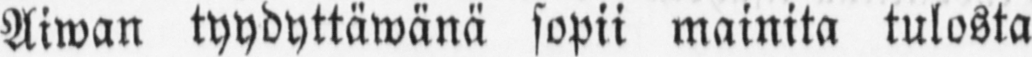Aiwan tyydyttäwänä sopii mainita tulosta
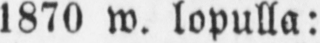l870 w. lopulla:
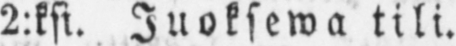2:ksi. Juoksewa tili.
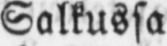Salkussa
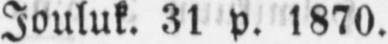Jouluk. 31 p. 1870.
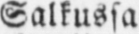Salkussa
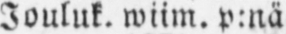Jouluk. wiim. p:nä
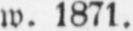w. l87l.
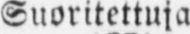Suoritettiin
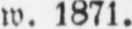w. 1871.
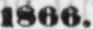1866.
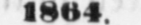1864
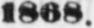1868.
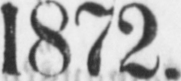1872.
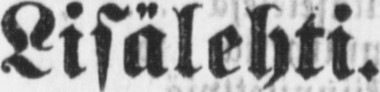Lisälehti.
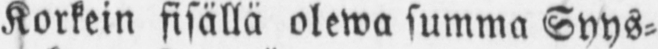Korkein sisällä olewa summa Syys-
